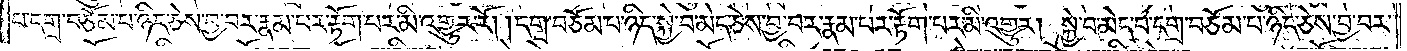པ་དགྲ་བཅོམ་པ་ཉིད་ཅེས་བྱ་བར་རྣམ་པར་རྟོག་པར་མི་འགྱུར་རོ། །དགྲ་བཅོམ་པ་ཉིད་སྐྱེ་བ་མེད་ཅེས་བྱ་བར་རྣམ་པར་རྟོག་པར་མི་འགྱུར། སྐྱེ་བ་མེད་པ་དགྲ་བཅོམ་པ་ཉིད་ཅེས་བྱ་བར་
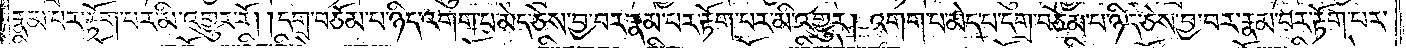རྣམ་པར་རྟོག་པར་མི་འགྱུར་རོ། །དགྲ་བཅོམ་པ་ཉིད་འགག་པ་མེད་ཅེས་བྱ་བར་རྣམ་པར་རྟོག་པར་མི་འགྱུར། འགག་པ་མེད་པ་དགྲ་བཅོམ་པ་ཉིད་ཅེས་བྱ་བར་རྣམ་པར་རྟོག་པར་
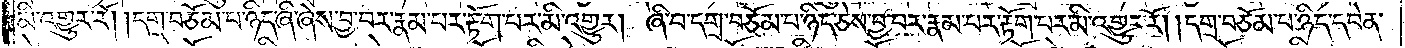མི་འགྱུར་རོ། །དགྲ་བཅོམ་པ་ཉིད་ཞི་ཞེས་བྱ་བར་རྣམ་པར་རྟོག་པར་མི་འགྱུར། ཞི་བ་དགྲ་བཅོམ་པ་ཉིད་ཅེས་བྱ་བར་རྣམ་པར་རྟོག་པར་མི་འགྱུར་རོ། །དགྲ་བཅོམ་པ་ཉིད་དབེན་
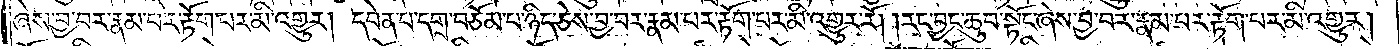ཞེས་བྱ་བར་རྣམ་པར་རྟོག་པར་མི་འགྱུར། དབེན་པ་དགྲ་བཅོམ་པ་ཉིད་ཅེས་བྱ་བར་རྣམ་པར་རྟོག་པར་མི་འགྱུར་རོ། །རང་བྱང་ཆུབ་སྟོང་ཞེས་བྱ་བར་རྣམ་པར་རྟོག་པར་མི་འགྱུར།
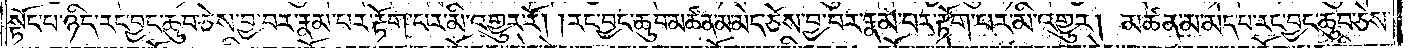སྟོང་པ་ཉིད་རང་བྱང་ཆུབ་ཅེས་བྱ་བར་རྣམ་པར་རྟོག་པར་མི་འགྱུར་རོ། །རང་བྱང་ཆུབ་མཚན་མ་མེད་ཅེས་བྱ་བར་རྣམ་པར་རྟོག་པར་མི་འགྱུར། མཚན་མ་མེད་པ་རང་བྱང་ཆུབ་ཅེས་
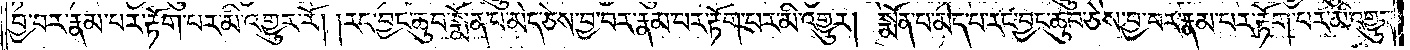བྱ་བར་རྣམ་པར་རྟོག་པར་མི་འགྱུར་རོ། །རང་བྱང་ཆུབ་སྨོན་པ་མེད་ཅེས་བྱ་བར་རྣམ་པར་རྟོག་པར་མི་འགྱུར། སྨོན་པ་མེད་པ་རང་བྱང་ཆུབ་ཅེས་བྱ་བར་རྣམ་པར་རྟོག་པར་མི་འགྱུར་
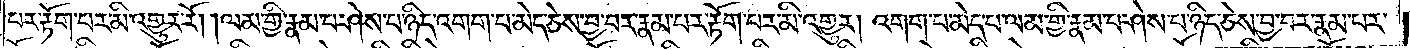པར་རྟོག་པར་མི་འགྱུར་རོ། །ལམ་གྱི་རྣམ་པ་ཤེས་པ་ཉིད་འགག་པ་མེད་ཅེས་བྱ་བར་རྣམ་པར་རྟོག་པར་མི་འགྱུར། འགག་པ་མེད་པ་ལམ་གྱི་རྣམ་པ་ཤེས་པ་ཉིད་ཅེས་བྱ་བར་རྣམ་པར་
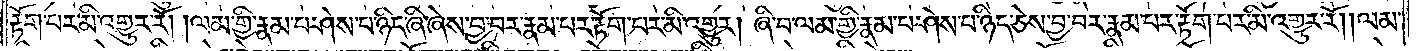རྟོག་པར་མི་འགྱུར་རོ། །ལམ་གྱི་རྣམ་པ་ཤེས་པ་ཉིད་ཞི་ཞེས་བྱ་བར་རྣམ་པར་རྟོག་པར་མི་འགྱུར། ཞི་བ་ལམ་གྱི་རྣམ་པ་ཤེས་པ་ཉིད་ཅེས་བྱ་བར་རྣམ་པར་རྟོག་པར་མི་འགྱུར་རོ། །ལམ་
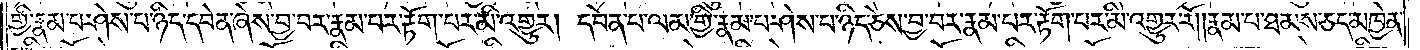གྱི་རྣམ་པ་ཤེས་པ་ཉིད་དཔེན་ཞེས་བྱ་བར་རྣམ་པར་རྟོག་པར་མི་འགྱུར། དབེན་པ་ལམ་གྱི་རྣམ་པ་ཤེས་པ་ཉིད་ཅེས་བྱ་བར་རྣམ་པར་རྟོག་པར་མི་འགྱུར་རོ། །རྣམ་པ་ཐམས་ཅད་མཁྱེན་
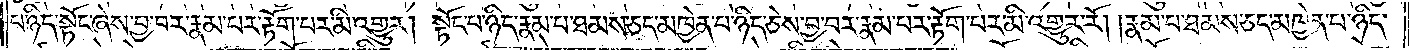པ་ཉིད་སྟོང་ཞེས་བྱ་བར་རྣམ་པར་རྟོག་པར་མི་འགྱུར། སྟོང་པ་ཉིད་རྣམ་པ་ཐམས་ཅད་མཁྱེན་པ་ཉིད་ཅེས་བྱ་བར་རྣམ་པར་རྟོག་པར་མི་འགྱུར་རོ། །རྣམ་པ་ཐམས་ཅད་མཁྱེན་པ་ཉིད་
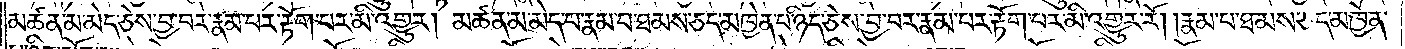མཚན་མ་མེད་ཅེས་བྱ་བར་རྣམ་པར་རྟོག་པར་མི་འགྱུར། མཚན་མ་མེད་པ་རྣམ་པ་ཐམས་ཅད་མཁྱེན་པ་ཉིད་ཅེས་བྱ་བར་རྣམ་པར་རྟོག་པར་མི་འགྱུར་རོ། །རྣམ་པ་ཐམས་ཅད་མཁྱེན་
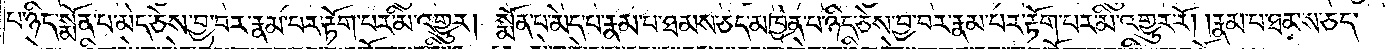པ་ཉིད་སྨོན་པ་མེད་ཅེས་བྱ་བར་རྣམ་པར་རྟོག་པར་མི་འགྱུར། སྨོན་པ་མེད་པ་རྣམ་པ་ཐམས་ཅད་མཁྱེན་པ་ཉིད་ཅེས་བྱ་བར་རྣམ་པར་རྟོག་པར་མི་འགྱུར་རོ། །རྣམ་པ་ཐམས་ཅད་
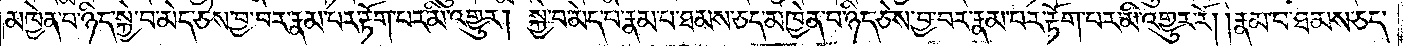མཁྱེན་པ་ཉིད་སྐྱེ་བ་མེད་ཅེས་བྱ་བར་རྣམ་པར་རྟོག་པར་མི་འགྱུར། སྐྱེ་བ་མེད་པ་རྣམ་པ་ཐམས་ཅད་མཁྱེན་པ་ཉིད་ཅེས་བྱ་བར་རྣམ་པར་རྟོག་པར་མི་འགྱུར་རོ། །རྣམ་པ་ཐམས་ཅད་
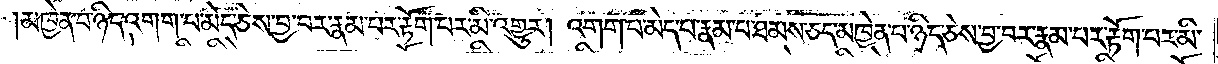མཁྱེན་པ་ཉིད་འགག་པ་མེད་ཅེས་བྱ་བར་རྣམ་པར་རྟོག་པར་མི་འགྱུར། འགག་པ་མེད་པ་རྣམ་པ་ཐམས་ཅད་མཁྱེན་པ་ཉིད་ཅེས་བྱ་བར་རྣམ་པར་རྟོག་པར་མི་
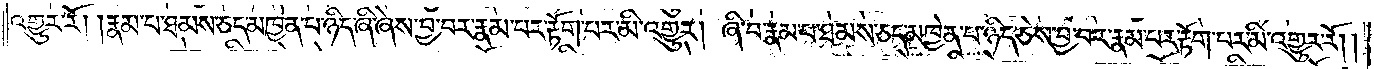འགྱུར་རོ། །རྣམ་པ་ཐམས་ཅད་མཁྱེན་པ་ཉིད་ཞི་ཞེས་བྱ་བར་རྣམ་པར་རྟོག་པར་མི་འགྱུར། ཞི་བ་རྣམ་པ་ཐམས་ཅད་མཁྱེན་པ་ཉིད་ཅེས་བྱ་བར་རྣམ་པར་རྟོག་པར་མི་འགྱུར་རོ། །
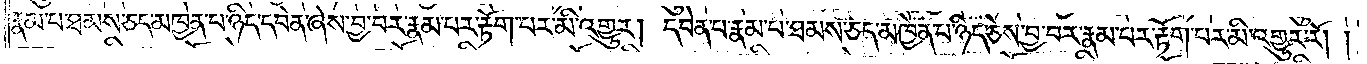རྣམ་པ་ཐམས་ཅད་མཁྱེན་པ་ཉིད་དབེན་ཞེས་བྱ་བར་རྣམ་པར་རྟོག་པར་མི་འགྱུར། དབེན་པ་རྣམ་པ་ཐམས་ཅད་མཁྱེན་པ་ཉིད་ཅེས་བྱ་བར་རྣམ་པར་རྟོག་པར་མི་འགྱུར་རོ། །
